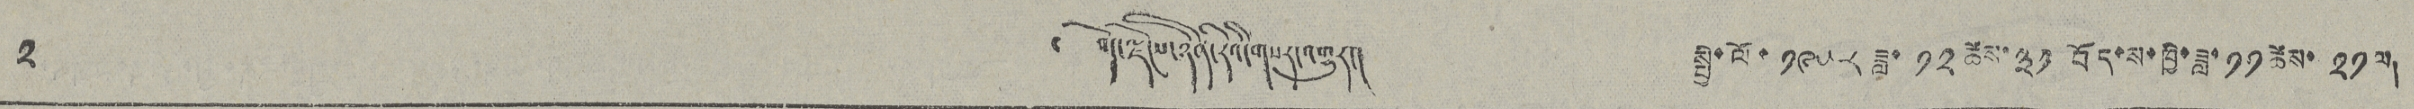༢   ༄ བོད་ལྗོངས་ཉིན་རེའི་གསར་འགྱུར། སྤྱི་ལོ་ ༡༩༥༨ ཟླ་ ༡༢ ཚེས་ ༣༡ བོད་ས་ཁྱི་ཟླ་ ༡༡ ཚེས་ ༢༡ ལ།
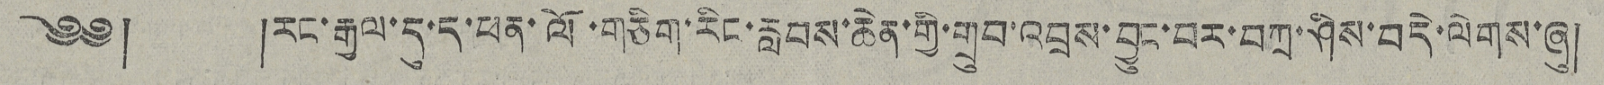༄༅། །རང་རྒྱལ་དུ་ད་ཕན་ལོ་གཅིག་རིང་རླབས་ཆེན་གྱི་གྲུབ་འབྲས་བྱུང་བར་བཀྲ་ཤིས་བདེ་ལེགས་ཞུ།
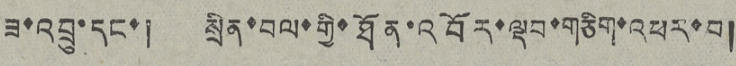ཟ་འབྲུ་དང་། སྲིན་བལ་གྱི་ཐོན་འབོར་ལྡབ་གཅིག་འཕར་བ།
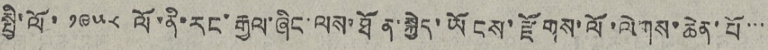སྤྱི་ལོ་ ༡༩༥༨ ལོ་ནི་རང་རྒྱལ་ཞིང་ལས་ཐོན་སྐྱེད་ཡོངས་རྫོགས་ལོ་ལེགས་ཆེན་པོ་་་
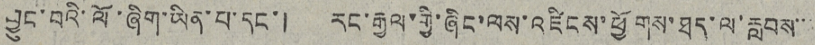བྱུང་བའི་ལོ་ཞིག་ཡིན་པ་དང་། རང་རྒྱལ་གྱི་ཞིང་ལས་འཛིངས་ཕྱོགས་ཐད་ལ་རླབས་་་
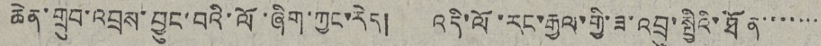ཆེན་གྲུབ་འབྲས་བྱུང་བའི་ལོ་ཞིག་ཀྱང་རེད། འདི་ལོ་རང་རྒྱལ་གྱི་ཟ་འབྲུ་སྤྱིའི་ཐོན་་་་་་
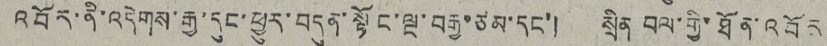འབོར་ནི་འདེགས་རྒྱ་དུང་ཕྱུར་བདུན་སྟོང་ལྔ་བརྒྱ་ཙམ་དང་། སྲིན བལ་གྱི་ཐོན་འབོར
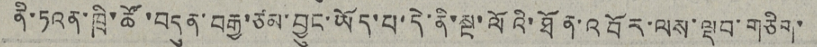ནི་ཏའན་ཁྲི་ཚོ་བདུན་བརྒྱ་ཙམ་བྱུང་ཡོད་པ་དེ་ནི་སྔ་ལོའི་ཐོན་འབོར་ལས་ལྡབ་གཅིག་
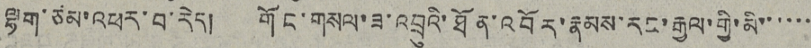ལྷག་ཙམ་འཕར་བ་རེད། གོང་གསལ་ཟ་འབྲུའི་ཐོན་འབོར་རྣམས་རང་རྒྱལ་གྱི་མི་་་་་་
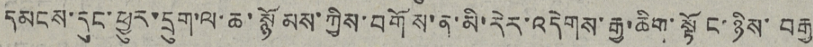དམངས་དུང་ཕྱུར་དྲུག་ལ་ཆ་སྙོམས་ཀྱིས་བགོས་ན་མི་རེར་འདེགས་རྒྱ་ཆིག་སྟོང་ཉིས་བརྒྱ
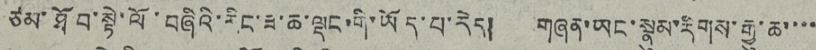ཙམ་ཐོབ་སྟེ་ལོ་བཞིའི་རིང་ཟ་ཆ་ལྡང་གི་ཡོད་པ་རེད། གཞན་ཡང་སྣུམ་རིགས་རྒྱུ་ཆ་་་་་
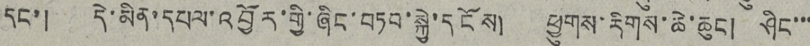དང་། དེ་མིན་དཔལ་འབྱོར་གྱི་ཞིང་བཏབ་སྐྱེ་དངོས། ཕྱུགས་རིགས་ཆེ་ཆུང། ཤིང་་་
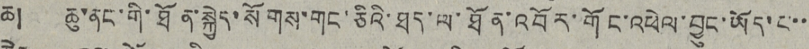ཆ། ཆུ་ནང་གི་ཐོན་སྐྱེད་སོགས་གང་ཅིའི་ཐད་ལ་ཐོན་འབོར་གོང་འཕེལ་བྱུང་ཡོད་པ་་
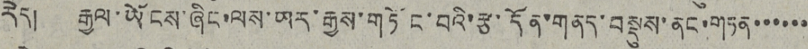རེད། རྒྱལ་ཡོངས་ཞིང་ལས་ཡར་རྒྱས་གཏོང་བའི་རྩ་དོན་གནད་བསྡུས་ནང་གཏན་་་་་་་
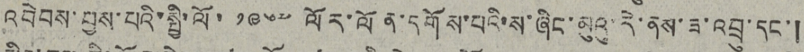འབེབས་བྱས་པའི་སྤྱི་ལོ་ ༡༩༦༧ ལོར་ལོན་དགོས་པའི་ས་ཞིང་མུའུ་རེ་ནས་ཟ་འབྲུ་དང་།
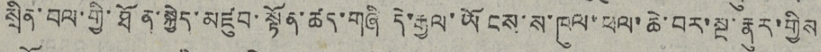སྲིན་བལ་གྱི་ཐོན་སྐྱེད་མཛུབ་སྟོན་ཚད་གཞི དེ་རྒྱལ་ཡོངས་ས་ཁུལ་ཕལ་ཆེ་བར་སྔ་རྣུར་གྱིས
